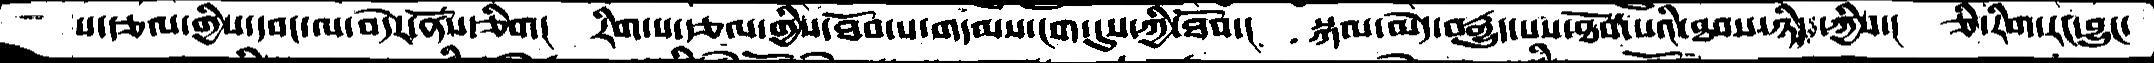ས་རྩལ་གྱིས་དབང་ལ་བདེར་ནོས་ཅིག།  རིག་པ་རྩལ་གྱིས་ཐོབ་པ་གདམས་ངག་དུས་ཀྱི་ཐོབ་།   སྐལ་མེད་བརྒྱུད་པས་ཐོབ་པའི་ཐབས་ཉིད་ཀྱིས་།  ཅི་རིག་རང་བྱུང་
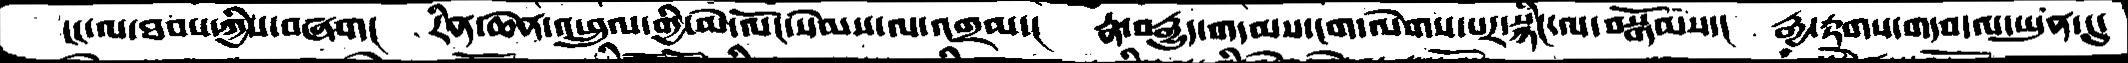ངང་ལ་ཐབས་ཀྱིས་བཞག།  རིན་ཆེན་འཕྲུལ་གྱི་མེ་ལོང་སེམས་ལ་འགྲམ་།  རྣ་བརྒྱུད་གདམས་ངག་ལེགས་པར་སྙིང་ལ་བསྒོམས་།  རྒྱ་རྟགས་གདབ་ལ་ཡུན་དུ་
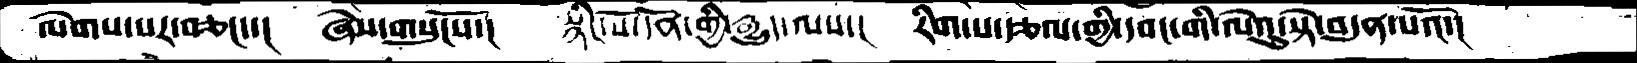ལེགས་པར་བཅང་་།  ཞེས་གསུངསོ་།  སྙིང་པོ་དོན་གྱི་རྒྱུད་ལས་།   རིག་པ་རྩལ་གྱི་དབང་གི་ལེའུ་སྟེ་བདུན་པའོ་།
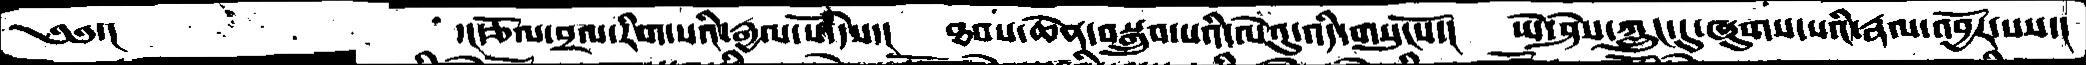༄༅་།       ་།རྩོལ་བྲལ་རིག་པའི་རྒྱལ་པོ་དེས་།  ཐབས་ཆེན་བསྒྲུབ་པའི་ལེའུ་འདི་གསུངསོ་།  ཡེ་ཤེས་ཀླུང་དུ་ཞུགས་པའི་རྣལ་འབྱོར་པས་།
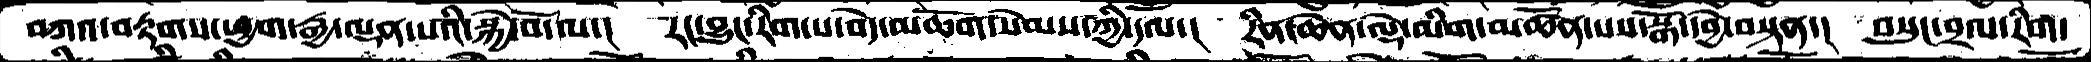བཀའ་བརྟགས་ཕྱག་རྒྱ་ལྡན་པའི་སྐྱེ་བོ་ལ་།  རང་བྱུང་རིག་པ་བདེ་མཆོག་སེམས་ཀྱི་དལ་།  རིན་ཆེན་ལྡེ་མིག་མཚོན་པས་སྒོ་དབྱེ་བསྟན་།  བསུང་བྲལ་རིག་
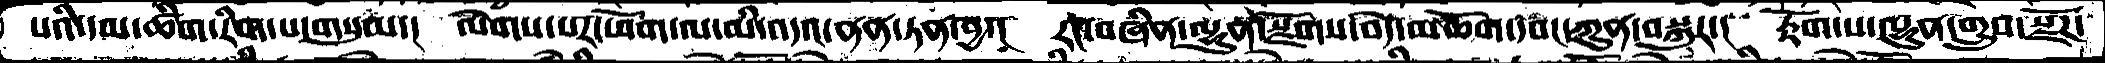པའི་དམ་ཚིག་རིག་པ་གསུམ་།  ལེགས་པར་ཕོག་ལ་མི་འདའ་ནན་ཏན་བྱ་།  རང་བཞིན་ལྷུན་སྫོགས་བདེ་མཆོག་དབང་ཀུན་བསྐུར་།  རྟོག་པ་ལྷུན་གྲུབ་སྫོཌ་
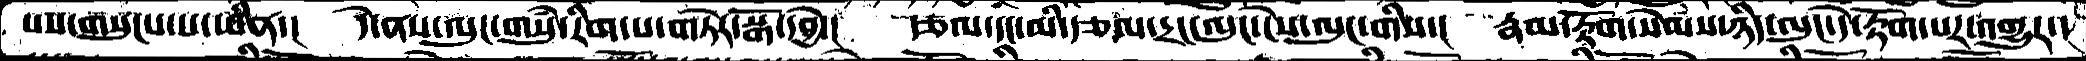པས་གསུངས་པ་ཡིན་།  དེ་ནས་ལུང་གསུཾ་རིག་པ་གཏེར་སྒོ་དབྱེ་།  རྩལ་དང་མི་རྩལ་དྲང་ལུང་ངེས་ལུང་གིས་།  རྣམ་རྟོག་སེམས་ཉིད་ལུང་དེ་རྟོག་པར་འགྱུར་།
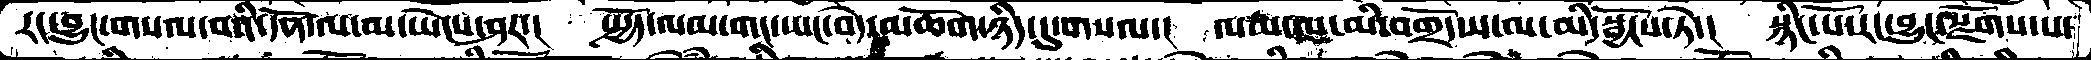རང་བྱུང་གསལ་བའི་དོན་ལ་མ་ཡེངས་ཤར་།  སྤྱོད་ལམ་གང་ཡང་བདེ་མཆོག་ཉིད་དུ་གསལ་།   ལམ་ལ་མི་བགྲོད་ས་ལ་མི་སྦྱོངས་ཏེ་།  སྙིང་པོ་རང་བྱུང་སྫོགས་པ་
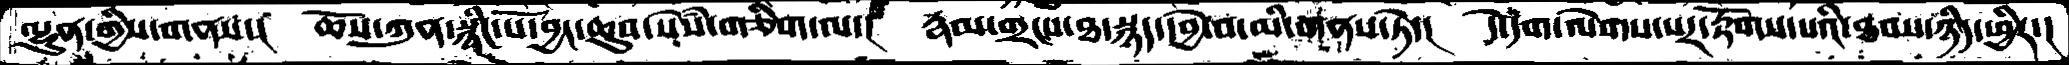ལྷུན་གྱིས་གནས་།  ཆོས་ཀུན་སྙིང་པོ་བྱང་ཆུབ་སེཾས་གཅིག་ལ་།  རྣམ་གྲངས་ཐ་སྙད་དབྱེ་བ་མི་གནས་ཏེ་།  དེ་དག་ལེགས་པར་རྟོགས་པའི་ཐབས་ཉིད་ཕྱིར་།
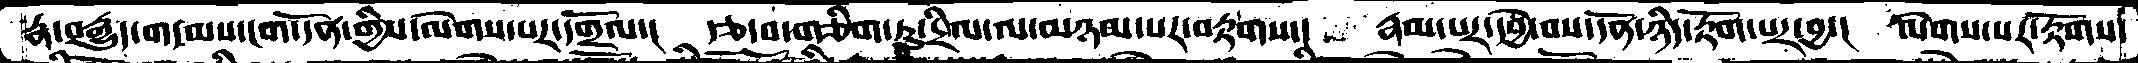རྣ་བརྒྱུད་གདམས་ངག་དོན་གྱིས་ལེགས་པར་དགྲོལ་།  རྩ་བ་གཅིག་ཏུ་དྲིལ་ལ་མཉམ་པར་བརྟགས་།  རྣམ་པར་དབྱེ་བས་དོན་ཉིད་རྟོག་པར་བྱ་།  ལེགས་པར་རྟོགས་
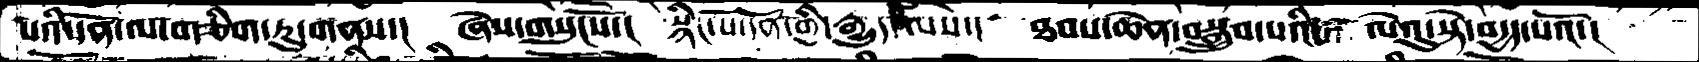པའི་དོན་ལ་གཅིག་ཏུ་གནས་།  ཞེས་གསུངསོ་།  སྙིང་པོ་དོན་གྱི་རྒྱུད་ལས་།  ཐབས་ཆེན་བསྒྲུབ་པའི་ ལེའུ་སྟེ་བདྱད་པའོ་།
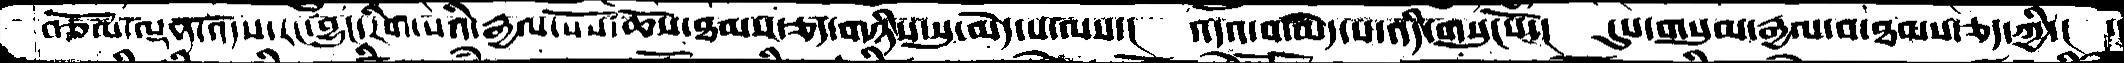བཅོམ་ལྡན་འདས་རང་བྱུང་རིག་པའི་རྒྱལ་པོས་ཆོས་ཐམས་ཅད་གཉིས་སུ་མེད་པ་ལས་།  འདའ་བ་མེད་པ་འདི་གསུངསོ་།  དུས་གསུམ་རྒྱལ་བ་ཐམས་ཅད་ཀྱི་།  ་
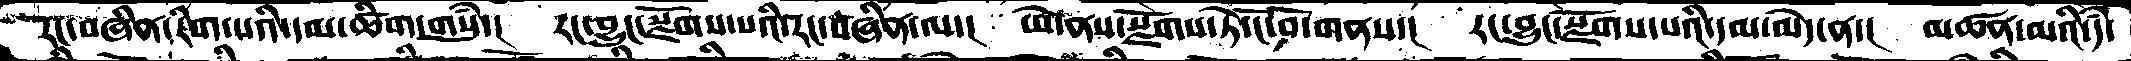རང་བཞིན་རིག་པའི་དམ་ཚིག་གསུཾ་།  རང་བྱུང་སྫོགས་པའི་རང་བཞིན་ལ་།  ཡེ་ནས་སྫོགས་ཏེ་ངོ་བོ་གནས་།  རང་བྱུང་སྫོགས་པའི་དམ་མེད་ན་།  མཚན་མའི་དཾ་
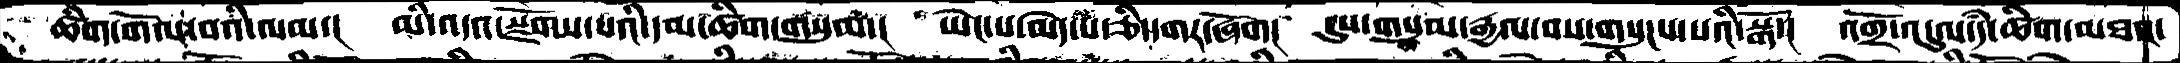ཚིག་གོལ་བའི་ལམ་།  མི་འདའ་སྫོགས་པའི་དམ་ཚིག་གསུམ་།  ཡེང་པ་མེད་པ་ཅི་དགར་ཞོག།  དུས་གསུམ་རྒྱལ་བས་གསུངས་པའི་སྒོ་།   འགྲོ་འདུལ་དཾ་ཚིག་མཐའ་
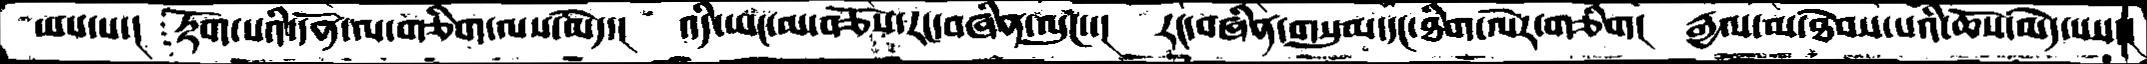ཡས་པ་།   རྟོག་པའི་དོན་ལ་གཅིག་ལས་མེད་།  འདི་ཡང་མ་བཅོས་རང་བཞིན་ལུང་་།  རང་བཞིན་གསུམ་དང་ཐིག་ལེར་གཅིག།  རྒྱལ་མ་ཐེབས་པའི་ཆོས་མེད་པས་།
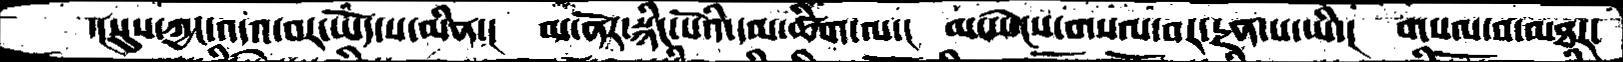་།སུས་ཀྱང་འདའ་བར་ཡོད་པ་མིན་།  མ་ནོར་སྙིང་པོའི་དམ་ཚིག་ལ་།  མ་ཡེངས་གསལ་བར་དྲན་པ་ཡི་།  གསལ་བ་མཐར་
